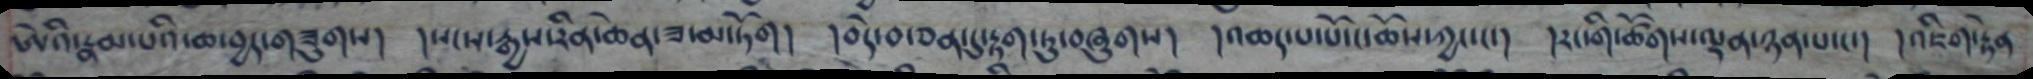ཨེའི་རྣམ་པའི་ཆ་བྱད་གཟུགས། །སངས་རྒྱས་རིན་ཆེན་ཟ་མ་ཏོག། །བདེ་བ་ཅན་དུ་རྟག་ཏུ་བཞུགས། །འཆད་པ་པོ་ང་ཆོས་ཀྱང་ང་། །རང་གི་ཚོགས་ལྡན་ཉན་པ་ང་། །འཇིག་རྟེན
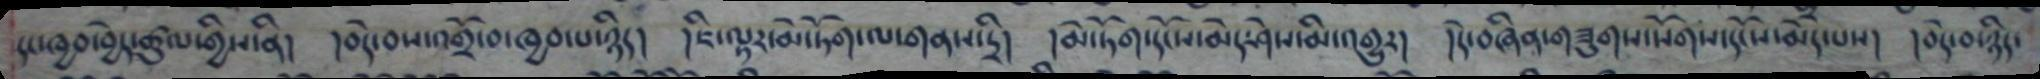དང་ཁྱབ་བྱེད་ཚུལ་གྱིས་ནི། །བདེ་བས་འགྲོ་བ་ཁྱབ་པ་ཉིད། །ཇི་ལྟར་མེ་ཏོག་ལ་གནས་དྲི། །མེ་ཏོག་དངོས་མེད་ཤེས་མི་འགྱུར། །དེ་བཞིན་གཟུགས་སོགས་དངོས་མེད་པས། །བདེ་བ་ཉིད་
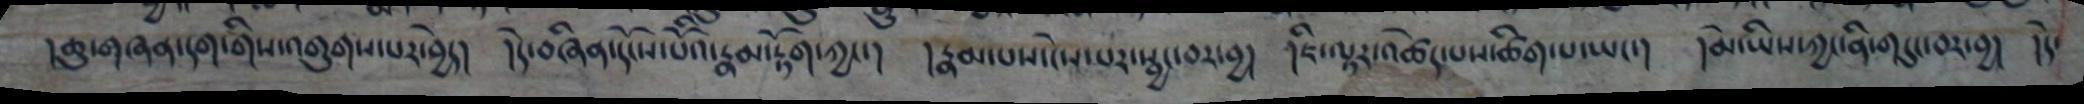།ཆུ་གཞན་དག་གིས་འགུགས་པར་བྱེད། །དེ་བཞིན་དངོས་པོའི་རྣམ་རྟོག་ཀྱང་། །རྣམ་པས་ངེས་པར་སྦྱང་བར་བྱ། །ཇི་ལྟར་འཚེད་པས་ཚིག་པ་ཡང་། །མེ་ཡིས་ཀྱང་ནི་གདུང་བར་བྱ། །དེ་
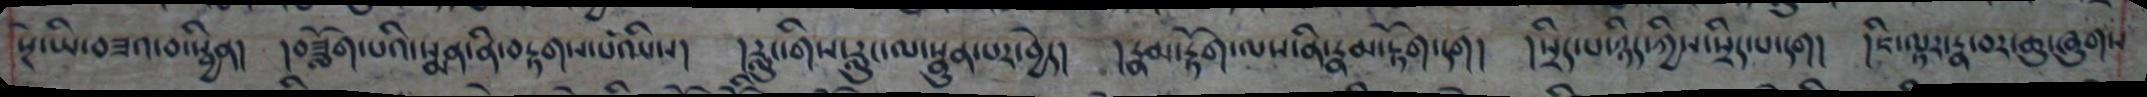སྔེ་ཡི་བཟའ་བ་སྦྱིན། །བཟློག་པའི་སྨན་ནི་བརྟགས་པ་ཡིས། །རླུང་གིས་རླུང་ལ་སྣུན་པར་བྱེད། །རྣམ་རྟོག་ལས་ནི་རྣམ་རྟོག་དག། །སྲིད་པ་ཉིད་ཀྱིས་སྲིད་པ་དག། །ཇི་ལྟར་རྣ་བར་ཆུ་ཞུགས
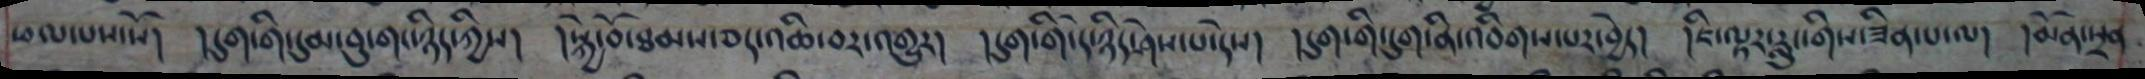ཕལ་པས་སོ། །དུག་གི་དུམ་བུ་གང་ཉིད་ཀྱིས། །སྐྱེ་བོ་ཐམས་ཅད་འཆི་བར་འགྱུར། །དུག་གི་དེ་ཉིད་ཤེས་པ་དེས། །དུག་གི་དུག་ནི་འབིགས་པར་བྱེད། །ཇི་ལྟར་རླུང་གིས་ཟིན་པ་ལ། །མོན་སྲན
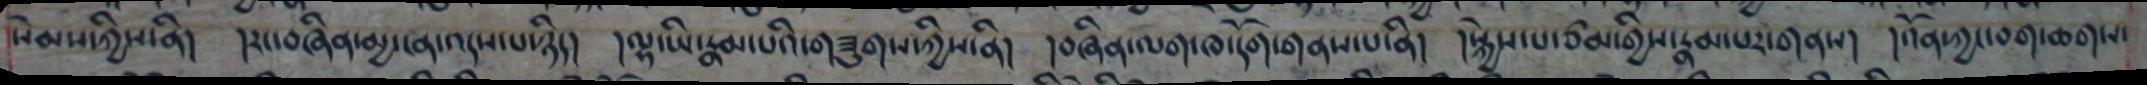སེམས་ཀྱིས་ནི། །རང་བཞིན་མྱ་ངན་འདས་པ་ཉིད། །ལྷ་ཡི་རྣམ་པའི་གཟུགས་ཀྱིས་ནི། །བཞིན་ལག་ཁ་དོག་གནས་པ་ནི། །སྐྱེས་པ་ཙམ་གྱིས་རྣམ་པར་གནས། །འོན་ཀྱང་བག་ཆགས་
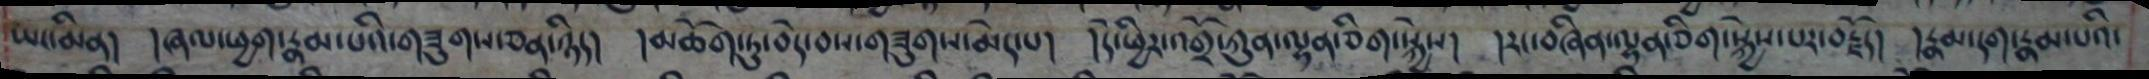ཡང་མིན། །ཞལ་ཕྱག་རྣམ་པའི་གཟུགས་ཅན་ཉིད། །མཆོག་ཏུ་བདེ་བས་གཟུགས་མེད་པ། །དེ་ཕྱིར་འགྲོ་ཀུན་ལྷན་ཅིག་སྐྱེས། །རང་བཞིན་ལྷན་ཅིག་སྐྱེས་པར་བརྗོད། །རྣམ་དག་རྣམ་པའི་
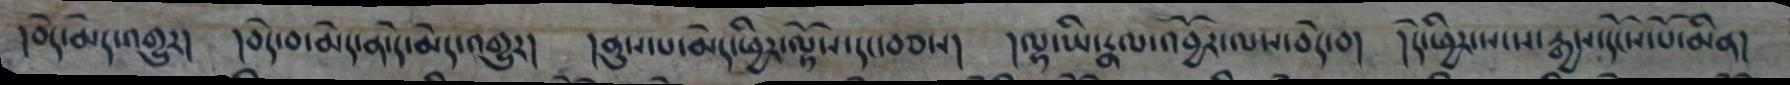།བདེ་མེད་འགྱུར། །བདེ་བ་མེད་ན་དེ་མེད་འགྱུར། །ནུས་པ་མེད་ཕྱིར་ལྟོས་དང་བཅས། །ལྷ་ཡི་རྣལ་འབྱོར་ལས་བདེ་བ། །དེ་ཕྱིར་སངས་རྒྱས་དངོས་པོ་མིན།
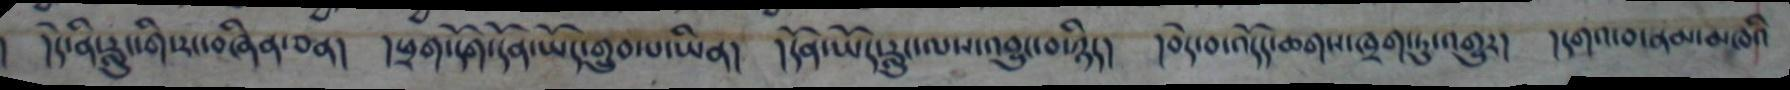། །དེ་ནི་རླུང་གི་རང་བཞིན་ཅན། །ཕྲག་དོག་དོན་ཡོད་གྲུབ་པ་ཡིན། །དོན་ཡོད་རླུང་ལས་འབྱུང་བ་ཉིད། །བདེ་བ་འདོད་ཆགས་ཁྲག་ཏུ་འགྱུར། །དགའ་བ་ནམ་མཁའི
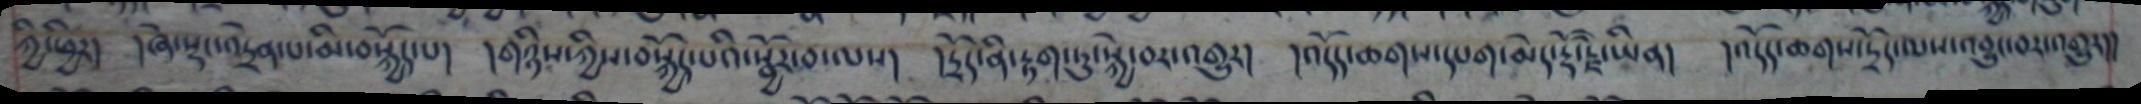ཀྱི་ཕྱིར། །ཞེ་སྡང་འདྲེན་པ་མི་བསྐྱོད་པ། །གཉིས་ཀྱིས་བསྐྱོད་པའི་སྦྱོར་བ་ལས། །དྲོད་ནི་རྟག་ཏུ་སྐྱེ་བར་འགྱུར། །འདོད་ཆགས་དཔག་མེད་རྡོ་རྗེ་ཡིན། །འདོད་ཆགས་དྲོད་ལས་འབྱུང་བར་འགྱུར།།
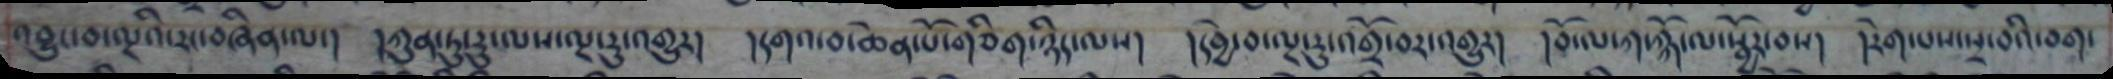འབྱུང་བ་ལྔའི་རང་བཞིན་ལ། །ཀུན་ཏུ་རུ་ལས་ལྔ་རུ་འགྱུར། །དགའ་བ་ཆེན་པོ་གཅིག་ཉིད་ལས། །དབྱེ་བ་ལྔ་རུ་འགྲོ་བར་འགྱུར། །བོ་ལ་ཀ་ཀྐོ་ལ་སྦྱོར་བས། །རེག་པས་སྲ་བའི་བག་
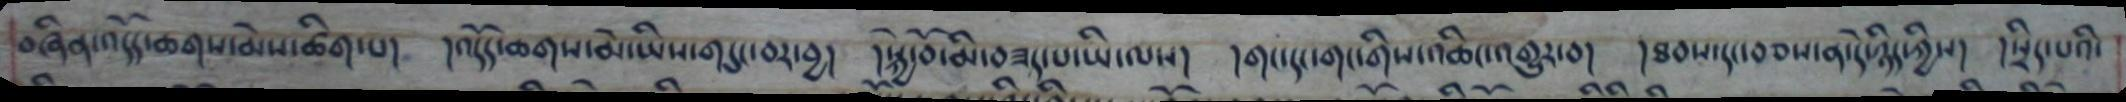བཞིན་འདོད་ཆགས་མེད་ཚིག་པ། །འདོད་ཆགས་མེ་ཡིས་གདུང་བར་བྱ། །སྐྱེ་བོ་མི་བཟད་པ་ཡི་ལས། །གང་དང་གང་གིས་འཆིང་འགྱུར་བ། །ཐབས་དང་བཅས་ན་དེ་ཉིད་ཀྱིས། །སྲིད་པའི་
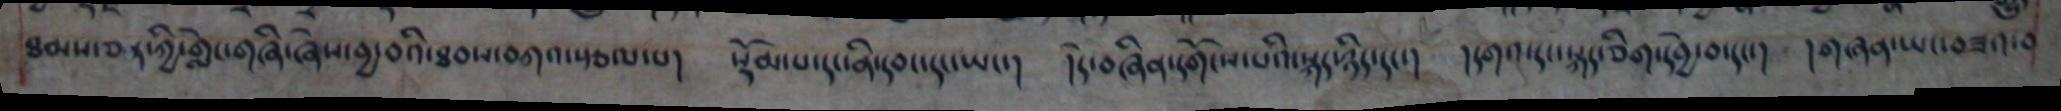ཐམས་ཅད་ཀྱི་གླེང་གཞི་ཞེས་བྱ་བའི་ཐབས་བཀའ་སྩལ་པ། སྡོམ་པ་དང་ནི་དབང་དང་ཡང་། །དེ་བཞིན་དགོངས་པའི་སྐད་ཉིད་དང་། །དགའ་དང་སྐད་ཅིག་དབྱེ་བ་དང་། །གཞན་ཡང་བཟའ་བ
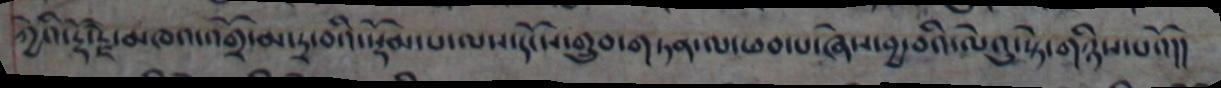ཀྱེའི་རྡོ་རྗེ་མཁའ་འགྲོ་མ་དྲ་བའི་སྡོམ་པ་ལས་དངོས་གྲུབ་གཏན་ལ་ཕབ་པ་ཞེས་བྱ་བའི་ལེའུ་སྟེ་གཉིས་པའོ།།
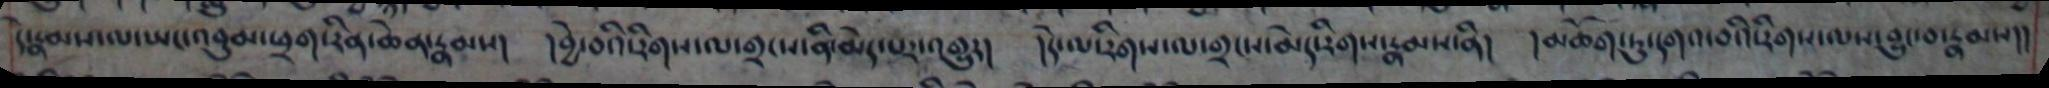དེ་རྣམས་ལ་ཡང་འབུམ་ཕྲག་རིན་ཆེན་རྣམས། །བྱེ་བའི་རིགས་ལ་གྲངས་ནི་མེད་པར་འགྱུར། །དེ་ལ་རིགས་ལ་གྲངས་མེད་རིགས་རྣམས་ནི། །མཆོག་ཏུ་དགའ་བའི་རིགས་ལས་བྱུང་བ་རྣམས།།
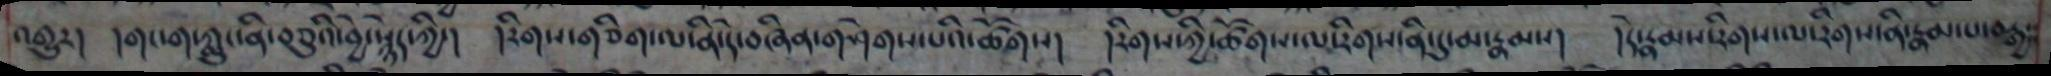འགྱུར། །གང་ག་ཀླུང་ནི་བཅུའི་བྱེ་སྙེད་ཀྱི་། །རིགས་གཅིག་ལ་ནི་དེ་བཞིན་གཤེགས་པའི་ཚོགས། །རིགས་ཀྱི་ཚོགས་ལ་རིགས་ནི་དུ་མ་རྣམས། །དེ་རྣམས་རིགས་ལ་རིགས་ནི་རྣམ་པ་བརྒྱ་
